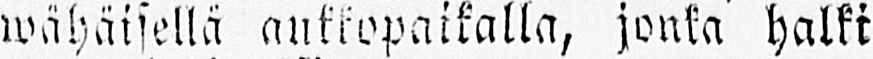wähäisellä ankkopaikalla, jonka halki
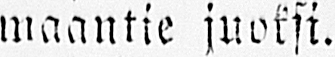maantie juoksi.
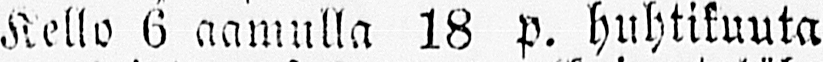Kello 6 aamulla 18 P. huhtikuuta
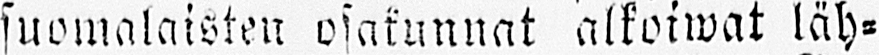suomalaisten osakunnat alkoiwat läh-
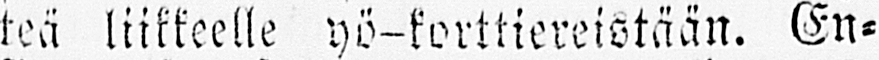teä liikkeelle yö-korttiereistään. En-
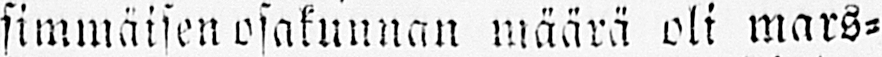simmäisen osakunnan määrä oli mars-
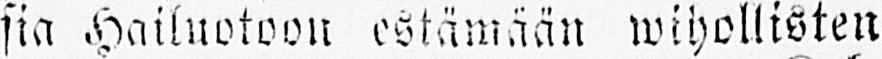sia Hailuotoon estämään wihollisten
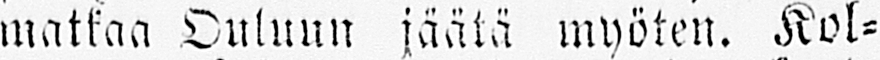matkaa Ouluun säätä myöten. Kol-
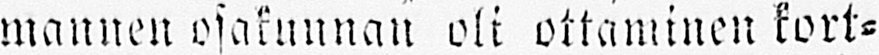mannen osakunnan oli ottaminen kort-
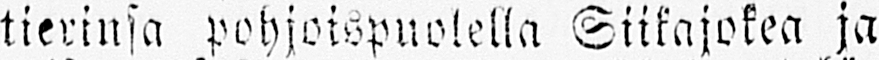tierinsa pohjoispuolella Siikajokea ja
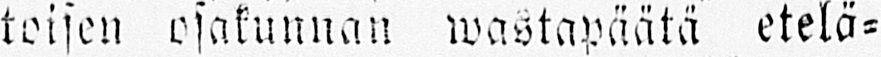toisen osakunnan wastapätä etelä-
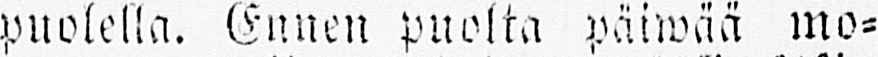puolella. Ennen puolta päiwää mo-
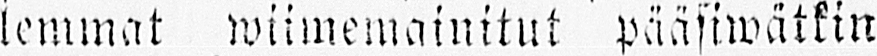lemmat wiimemainitut pääsiwätkin
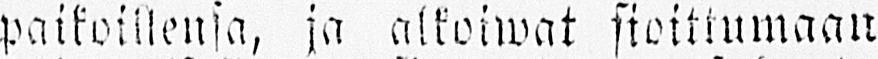paikoillensa, ja alkoiwat sioittumaan
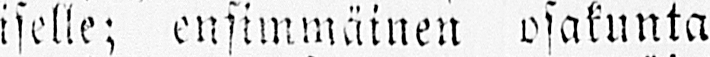päiwällise lle; ensimmäinen osakunta
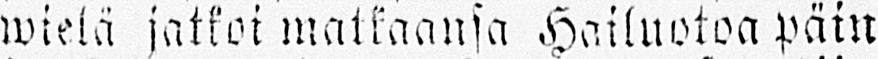wielä jatkoi malkaansa Hailuotoa päin
